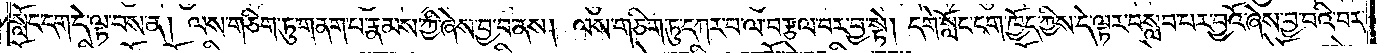སློང་དག་དེ་ལྟ་བས་ན། ལས་གཅིག་ཏུ་གནག་པ་རྣམས་ཀྱི་ཞེས་བྱ་བ་ནས། ལས་གཅིག་ཏུ་དཀར་བ་ལ་བརྩལ་བར་བྱ་སྟེ། དགེ་སློང་དག་ཁྱོད་ཀྱིས་དེ་ལྟར་བསླབ་པར་བྱའོ་ཞེས་བྱ་བའི་བར་
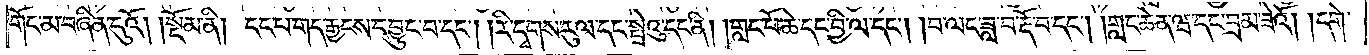གོང་མ་བཞིན་དུའོ།    །སྡོམ་ནི། ངང་པ་གད་རྒྱངས་དབྱུང་བ་དང༌། །རི་དྭགས་རུལ་དང་སྤྲེའུ་དང་ནི། །གླང་པོ་ཆེ་དང་བྱི་ལ་དང༌། །བ་ལང་ཟླ་བ་རྡོ་བ་དང༌། །གླང་ཆེན་ཝ་དང་བྲམ་ཟེའོ། །དགེ་
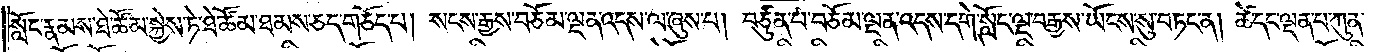སློང་རྣམས་ཐེ་ཚོམ་སྐྱེས་ཏེ་ཐེ་ཚོམ་ཐམས་ཅད་གཅོད་པ། སངས་རྒྱས་བཅོམ་ལྡན་འདས་ལ་ཞུས་པ། བཙུན་པ་བཅོམ་ལྡན་འདས་དགེ་སློང་ལྔ་བརྒྱས་ཡོངས་སུ་བཏང་ན། ཚེ་དང་ལྡན་པ་ཀུན་
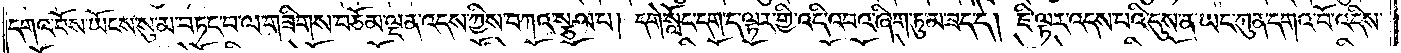དགའ་བོས་ཡོངས་སུ་མ་བཏང་བ་ལ་གཟིགས་བཅོམ་ལྡན་འདས་ཀྱིས་བཀའ་སྩལ་པ། དགེ་སློང་དག་ད་ལྟར་གྱི་འདི་འབའ་ཞིག་ཏུ་མ་ཟད་དེ། ཇི་ལྟར་འདས་པའི་དུས་ན་ཡང་ཀུན་དགའ་བོ་འདིས་
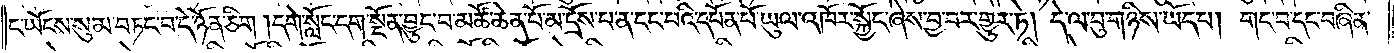ང་ཡོངས་སུ་མ་བཏང་བ་དེ་ཉོན་ཅིག །དགེ་སློང་དག་སྔོན་བྱུང་བ་མཚོ་ཆེན་པོ་མ་དྲོས་པ་ན་ངང་པའི་དཔོན་པོ་ཡུལ་འཁོར་སྐྱོང་ཞེས་བྱ་བར་གྱུར་ཏེ། དེ་ལ་བུ་གཉིས་ཡོད་པ། གང་བ་དང་བཞིན་
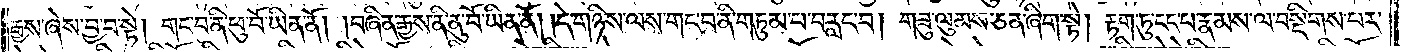རྒྱས་ཞེས་བྱ་བ་སྟེ། གང་བ་ནི་ཕུ་བོ་ཡིན་ནོ། །བཞིན་རྒྱས་ནི་ནུ་བོ་ཡིན་ནོ། །དེ་གཉིས་ལས་གང་བ་ནི་གཏུམ་པ་བརླང་བ། གཟུ་ལུམས་ཅན་ཞིག་སྟེ། རྟག་ཏུ་ངང་པ་རྣམས་ལ་བསྡིགས་པར་
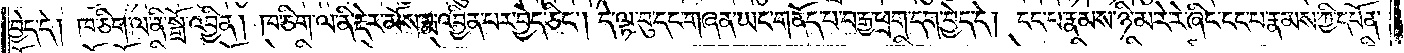བྱེད་དེ། ཁ་ཅིག་ལ་ནི་སྒྲོ་འབྱིན། ཁ་ཅིག་ལ་ནི་རྡེར་མོས་རྨ་འབྱིན་པར་བྱེད་ཅིང༌། དེ་ལྟ་བུ་དང་གཞན་ཡང་གནོད་པ་བརྒྱ་ཕྲག་དག་བྱེད་དེ། ངང་པ་རྣམས་ཉི་མ་རེ་རེ་ཞིང་ངང་པ་རྣམས་ཀྱི་དཔོན་
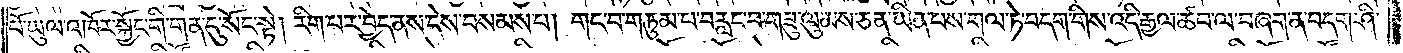པོ་ཡུལ་འཁོར་སྐྱོང་གི་གན་དུ་སོང་སྟེ། རིག་པར་བྱེད་ནས་དེས་བསམས་པ། གང་བ་གཏུམ་པ་བརླང་བ་གཟུ་ལུམས་ཅན་ཡིན་པས་གལ་ཏེ་བདག་གིས་འདི་རྒྱལ་ཚབ་ལ་བཞག་ན་བདག་ཤི་
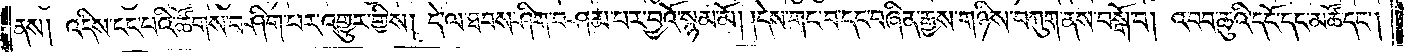ནས། འདིས་ངང་པའི་ཚོགས་བཤིག་པར་འགྱུར་གྱིས། དེ་ལ་ཐབས་ཤིག་བཤམ་པར་བྱའོ་སྙམ་མོ། །དེས་གང་བ་དང་བཞིན་རྒྱས་གཉིས་བཀུག་ནས་བསྒོ་བ། འབབ་ཆུའི་དངོ་དང་མཚོ་དང༌།
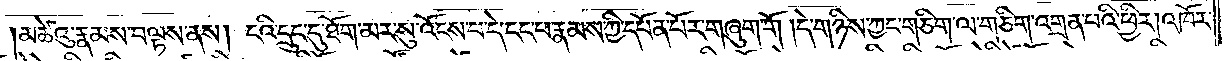མཚེའུ་རྣམས་བལྟས་ནས། ངའི་དྲུང་དུ་ཐོག་མར་སུ་འོངས་པ་དེ་ངང་པ་རྣམས་ཀྱི་དཔོན་པོར་གཞུག་གོ །དེ་གཉིས་ཀྱང་གཅིག་ལ་གཅིག་འགྲན་པའི་ཕྱིར། འཁོར་
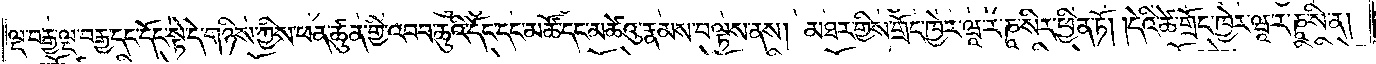ལྔ་བརྒྱ་ལྔ་བརྒྱ་དང་དོང་སྟེ་དེ་གཉིས་ཀྱིས་ཕན་ཚུན་གྱི་འབབ་ཆུའི་དོང་དང་མཚོ་དང་མཚེའུ་རྣམས་བལྟས་ནས། མཐར་གྱིས་གྲོང་ཁྱེར་ཝཱ་ར་ཎཱ་སིར་ཕྱིན་ཏོ། །དེའི་ཚེ་གྲོང་ཁྱེར་ཝཱ་ར་ཎཱ་སི་ན།
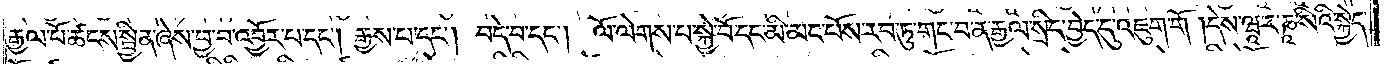རྒྱལ་པོ་ཚངས་སྦྱིན་ཞེས་བྱ་བ་འབྱོར་བ་དང༌། རྒྱས་པ་དང༌། བདེ་བ་དང༌། ལོ་ལེགས་པ་སྐྱེ་བོ་དང་མི་མང་པོས་རབ་ཏུ་གང་བ་ན་རྒྱལ་སྲིད་བྱེད་དུ་འཇུག་གོ །དེས་ཝཱ་ར་ཎཱ་སིའི་སྐྱེད་
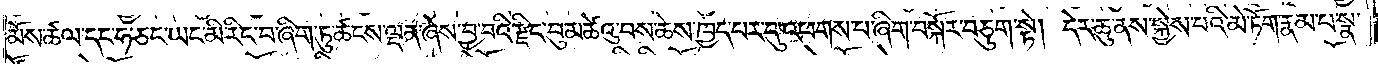མོས་ཚལ་དང་ཧ་ཅང་ཡང་མི་རིང་བ་ཞིག་ཏུ་ཚངས་ལྡན་ཞེས་བྱ་བའི་རྫིང་བུ་མཚེའུ་བས་ཆེས་ཁྱད་པར་དུ་འཕགས་པ་ཞིག་བསྐོར་བཅུག་སྟེ། དེར་ཆུ་ནས་སྐྱེས་པའི་མེ་ཏོག་རྣམ་པ་སྣ་
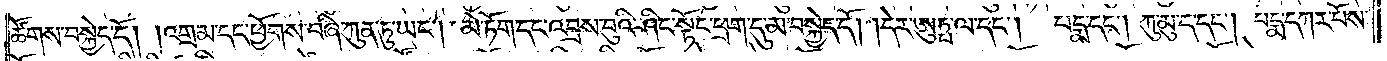ཚོགས་བསྐྱེད་དོ། །འགྲམ་དང་ཕྱོགས་བཞི་ཀུན་ཏུ་ཡང༌། མེ་ཏོག་དང་འབྲས་བུའི་ཤིང་སྟོང་ཕྲག་དུ་མ་བསྐྱེད་དོ། །དེར་ཨུཏྤ་ལ་དང༌། པདྨ་དང༌། ཀུ་མུ་ད་དང༌། པདྨ་དཀར་པོས་
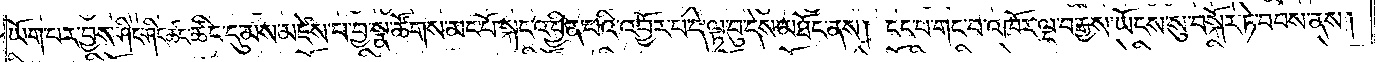ཡོག་པར་བྱས་ཤིང་ཤིང་ཚང་ཚིང་དུ་མས་མཛེས་པ་བྱ་སྣ་ཚོགས་མང་པོ་སྐད་འབྱིན་པའི་འབྱོར་པ་དེ་ལྟ་བུ་དེས་མཐོང་ནས། ངང་པ་གང་བ་འཁོར་ལྔ་བརྒྱས་ཡོངས་སུ་བསྐོར་ཏེ་བབས་ནས།
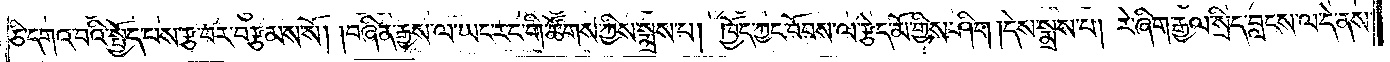ཅི་དགའ་བའི་སྤྱོད་པས་རྩ་བར་བརྩམས་སོ། །བཞིན་རྒྱས་ལ་ཡང་རང་གི་ཚོགས་ཀྱིས་སྨྲས་པ། ཁྱོད་ཀྱང་བོབས་ལ་རྩེད་མོ་གྱིས་ཤིག །དེས་སྨྲས་པ། རེ་ཞིག་རྒྱལ་སྲིད་བླངས་ལ་དེ་ནས་
